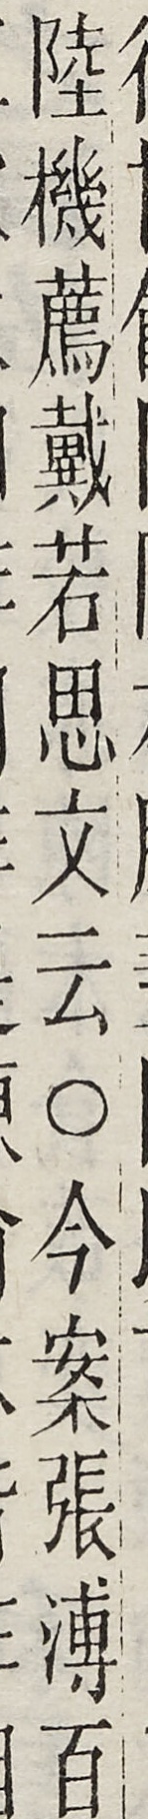陸機薦戴若思文云○今案張溥百
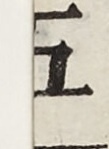五
